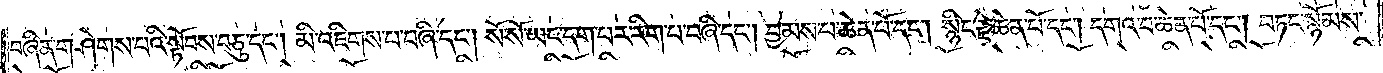བཞིན་གཤེགས་པའི་སྟོབས་བཅུ་དང༌། མི་འཇིགས་པ་བཞི་དང༌། སོ་སོ་ཡང་དག་པར་རིག་པ་བཞི་དང༌། བྱམས་པ་ཆེན་པོ་དང༌། སྙིང་རྗེ་ཆེན་པོ་དང༌། དགའ་བ་ཆེན་པོ་དང༌། བཏང་སྙོམས་
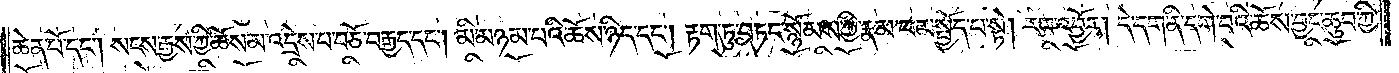ཆེན་པོ་དང༌། སངས་རྒྱས་ཀྱི་ཆོས་མ་འདྲེས་པ་བཅོ་བརྒྱད་དང༌། མི་མཉམ་པའི་ཆོས་ཉིད་དང༌། རྟག་ཏུ་བཏང་སྙོམས་ཀྱི་རྣམ་པར་སྤྱོད་པ་སྟེ། རབ་འབྱོར། དེ་དག་ནི་དགེ་བའི་ཆོས་བྱང་ཆུབ་ཀྱི་
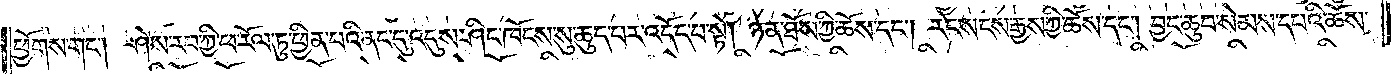ཕྱོགས་གང༌། ཤེས་རབ་ཀྱི་ཕ་རོལ་ཏུ་ཕྱིན་པའི་ནང་དུ་འདུས་ཤིང་ཁོངས་སུ་ཆུད་པར་འདོད་པ་སྟེ། ཉན་ཐོས་ཀྱི་ཆོས་དང༌། རང་སངས་རྒྱས་ཀྱི་ཆོས་དང༌། བྱང་ཆུབ་སེམས་དཔའི་ཆོས་
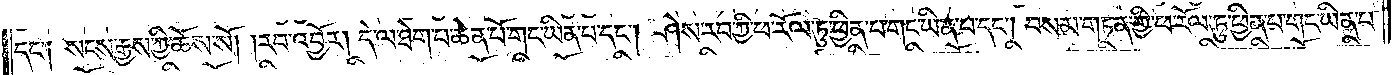དང་། སངས་རྒྱས་ཀྱི་ཆོས་སོ། །རབ་འབྱོར། དེ་ལ་ཐེག་པ་ཆེན་པོ་གང་ཡིན་པ་དང༌། ཤེས་རབ་ཀྱི་ཕ་རོལ་ཏུ་ཕྱིན་པ་གང་ཡིན་པ་དང༌། བསམ་གཏན་གྱི་ཕ་རོལ་ཏུ་ཕྱིན་པ་གང་ཡིན་པ་
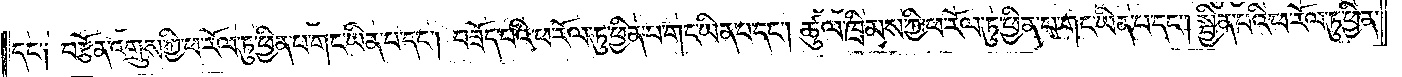དང་། བརྩོན་འགྲུས་ཀྱི་ཕ་རོལ་ཏུ་ཕྱིན་པ་གང་ཡིན་པ་དང༌། བཟོད་པའི་ཕ་རོལ་ཏུ་ཕྱིན་པ་གང་ཡིན་པ་དང༌། ཚུལ་ཁྲིམས་ཀྱི་ཕ་རོལ་ཏུ་ཕྱིན་པ་གང་ཡིན་པ་དང༌། སྦྱིན་པའི་ཕ་རོལ་ཏུ་ཕྱིན་
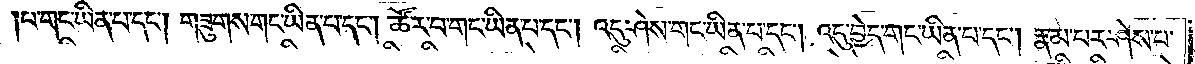པ་གང་ཡིན་པ་དང༌། གཟུགས་གང་ཡིན་པ་དང༌། ཚོར་བ་གང་ཡིན་པ་དང༌། འདུ་ཤེས་གང་ཡིན་པ་དང༌། འདུ་བྱེད་གང་ཡིན་པ་དང༌། རྣམ་པར་ཤེས་པ་
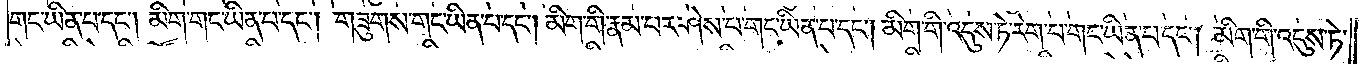གང་ཡིན་པ་དང༌། མིག་གང་ཡིན་པ་དང༌། གཟུགས་གང་ཡིན་པ་དང༌། མིག་གི་རྣམ་པར་ཤེས་པ་གང་ཡིན་པ་དང༌། མིག་གི་འདུས་ཏེ་རེག་པ་གང་ཡིན་པ་དང༌། མིག་གི་འདུས་ཏེ་
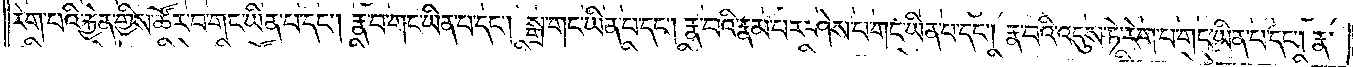རེག་པའི་རྐྱེན་གྱིས་ཚོར་བ་གང་ཡིན་པ་དང༌། རྣ་བ་གང་ཡིན་པ་དང༌། སྒྲ་གང་ཡིན་པ་དང༌། རྣ་བའི་རྣམ་པར་ཤེས་པ་གང་ཡིན་པ་དང༌། རྣ་བའི་འདུས་ཏེ་རེག་པ་གང་ཡིན་པ་དང༌། རྣ་
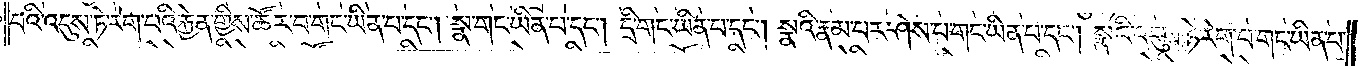བའི་འདུས་ཏེ་རེག་པའི་རྐྱེན་གྱིས་ཚོར་བ་གང་ཡིན་པ་དང༌། སྣ་གང་ཡིན་པ་དང༌། དྲི་གང་ཡིན་པ་དང༌། སྣའི་རྣམ་པར་ཤེས་པ་གང་ཡིན་པ་དང༌། སྣའི་འདུས་ཏེ་རེག་པ་གང་ཡིན་པ་
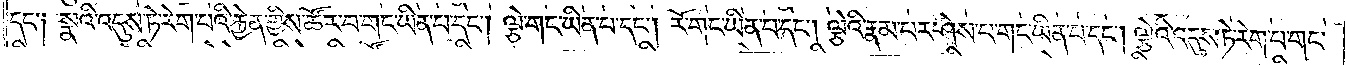དང་། སྣའི་འདུས་ཏེ་རེག་པའི་རྐྱེན་གྱིས་ཚོར་བ་གང་ཡིན་པ་དང༌། ལྕེ་གང་ཡིན་པ་དང༌། རོ་གང་ཡིན་པ་དང༌། ལྕེའི་རྣམ་པར་ཤེས་པ་གང་ཡིན་པ་དང༌། ལྕེའི་འདུས་ཏེ་རེག་པ་གང་
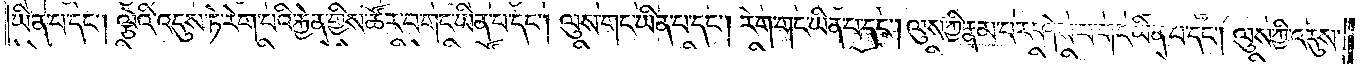ཡིན་པ་དང༌། ལྕེའི་འདུས་ཏེ་རེག་པའི་རྐྱེན་གྱིས་ཚོར་བ་གང་ཡིན་པ་དང༌། ལུས་གང་ཡིན་པ་དང༌། རེག་གང་ཡིན་པ་དང༌། ལུས་ཀྱི་རྣམ་པར་ཤེས་པ་གང་ཡིན་པ་དང༌། ལུས་ཀྱི་འདུས་
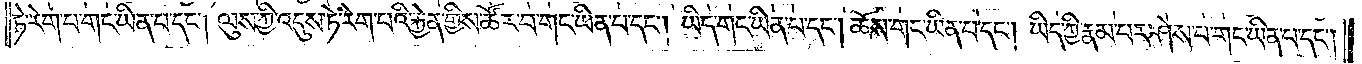ཏེ་རེག་པ་གང་ཡིན་པ་དང༌། ལུས་ཀྱི་འདུས་ཏེ་རེག་པའི་རྐྱེན་གྱིས་ཚོར་བ་གང་ཡིན་པ་དང༌། ཡིད་གང་ཡིན་པ་དང༌། ཆོས་གང་ཡིན་པ་དང༌། ཡིད་ཀྱི་རྣམ་པར་ཤེས་པ་གང་ཡིན་པ་དང༌།
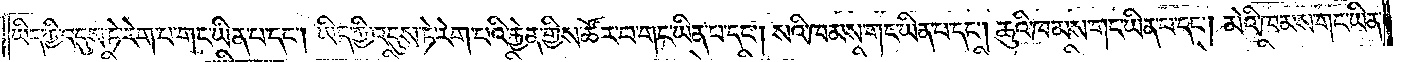ཡིད་ཀྱི་འདུས་ཏེ་རེག་པ་གང་ཡིན་པ་དང༌། ཡིད་ཀྱི་འདུས་ཏེ་རེག་པའི་རྐྱེན་གྱིས་ཚོར་བ་གང་ཡིན་པ་དང༌། སའི་ཁམས་གང་ཡིན་པ་དང༌། ཆུའི་ཁམས་གང་ཡིན་པ་དང༌། མེའི་ཁམས་གང་ཡིན་
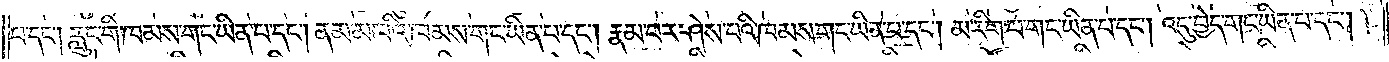པ་དང༌། རླུང་གི་ཁམས་གང་ཡིན་པ་དང༌། ནམ་མཁའི་ཁམས་གང་ཡིན་པ་དང༌། རྣམ་པར་ཤེས་པའི་ཁམས་གང་ཡིན་པ་དང༌། མ་རིག་པ་གང་ཡིན་པ་དང༌། འདུ་བྱེད་གང་ཡིན་པ་དང༌།
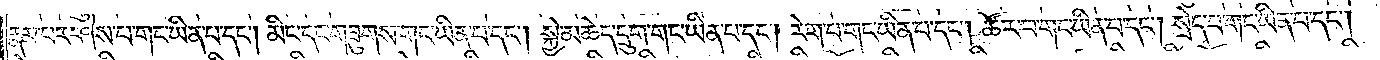རྣམ་པར་ཤེས་པ་གང་ཡིན་པ་དང༌། མིང་དང་གཟུགས་གང་ཡིན་པ་དང༌། སྐྱེ་མཆེད་དྲུག་གང་ཡིན་པ་དང༌། རེག་པ་གང་ཡིན་པ་དང༌། ཚོར་བ་གང་ཡིན་པ་དང༌། སྲེད་པ་གང་ཡིན་པ་དང༌།
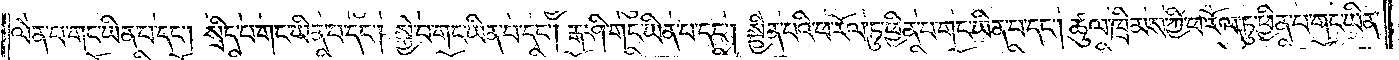ལེན་པ་གང་ཡིན་པ་དང༌། སྲིད་པ་གང་ཡིན་པ་དང༌། སྐྱེ་བ་གང་ཡིན་པ་དང༌། རྒ་ཤི་གང་ཡིན་པ་དང༌། སྦྱིན་པའི་ཕ་རོལ་ཏུ་ཕྱིན་པ་གང་ཡིན་པ་དང༌། ཚུལ་ཁྲིམས་ཀྱི་ཕ་རོལ་ཏུ་ཕྱིན་པ་གང་ཡིན་
